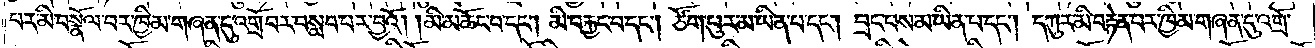པར་མི་བསྣོལ་བར་ཁྱིམ་གཞན་དུ་འགྲོ་བར་བསླབ་པར་བྱའོ། །མི་མཆོང་བ་དང༌། མི་བརྐྱང་བ་དང༌། ཙོག་པུར་མ་ཡིན་པ་དང༌། བྲང་པས་མ་ཡིན་པ་དང༌། དཀུར་མི་བརྟེན་པར་ཁྱིམ་གཞན་དུ་འགྲོ་
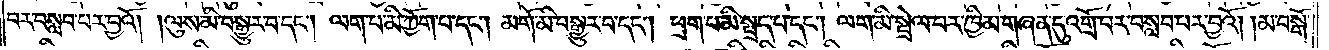བར་བསླབ་པར་བྱའོ། །ལུས་མི་བསྒྱུར་བ་དང༌། ལག་པ་མི་ཀྱོག་པ་དང༌། མགོ་མི་བསྒྱུར་བ་དང༌། ཕྲག་པ་མི་སྤྲད་པ་དང༌། ལག་མི་སྦྲེལ་བར་ཁྱིམ་གཞན་དུ་འགྲོ་བར་བསླབ་པར་བྱའོ། །མ་བསྒོ་
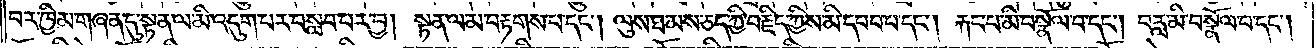བར་ཁྱིམ་གཞན་དུ་སྟན་ལ་མི་འདུག་པར་བསླབ་པར་བྱ། སྟན་ལ་མ་བརྟགས་པ་དང༌། ལུས་ཐམས་ཅད་ཀྱི་བརྗིད་ཀྱིས་མི་དབབ་པ་དང༌། རྐང་པ་མི་བསྣོལ་བ་དང༌། བརླ་མི་བསྣོལ་བ་དང༌།
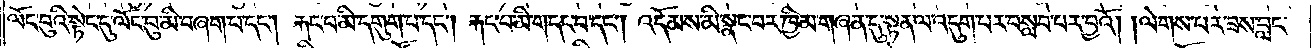ལོང་བུའི་སྟེང་དུ་ལོང་བུ་མི་བཞག་པ་དང༌། རྐང་པ་མི་དགུག་པ་དང༌། རྐང་པ་མི་གདང་བ་དང༌། འདོམས་མི་སྣང་བར་ཁྱིམ་གཞན་དུ་སྟན་ལ་འདུག་པར་བསླབ་པར་བྱའོ། །ལེགས་པར་ཟས་བླང་
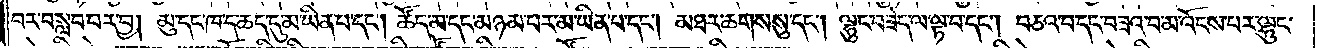བར་བསླབ་པར་བྱ། མུ་དང་ཁ་ད་ཆད་དུ་མ་ཡིན་པ་དང༌། ཚོད་མ་དང་མཉམ་པར་མ་ཡིན་པ་དང༌། མཐར་ཆགས་སུ་དང༌། ལྷུང་བཟེད་ལ་ལྟ་བ་དང༌། བཅའ་བ་དང་བཟའ་བ་མ་འོངས་པར་ལྷུང་
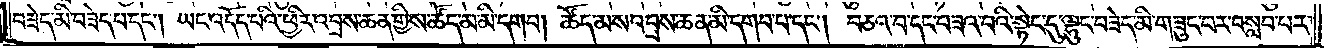བཟེད་མི་བཟེད་པ་དང༌། ཡང་འདོད་པའི་ཕྱིར་འབྲས་ཆན་གྱིས་ཚོད་མ་མི་དགབ། ཚོད་མས་འབྲས་ཆན་མི་དགབ་པ་དང༌། བཅའ་བ་དང་བཟའ་བའི་སྟེང་དུ་ལྷུང་བཟེད་མི་གཟུང་བར་བསླབ་པར་
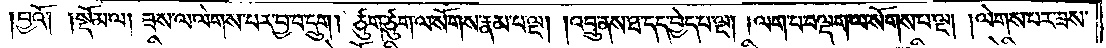བྱའོ། །སྡོམ་ལ། ཟས་ལ་ལེགས་པར་བྱ་བ་དྲུག། ཙུག་ཙུག་ལ་སོགས་རྣམ་པ་ལྔ། འབྲུ་ནས་ཐ་དད་བྱེད་པ་ལྔ། །ལག་པ་བལྡག་ལ་སོགས་པ་ལྔ། །ལེགས་པར་ཟས་
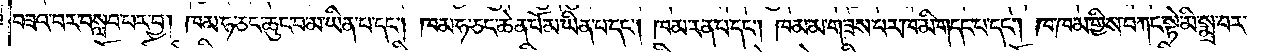བཟའ་བར་བསླབ་པར་བྱ། ཁམ་ཧ་ཅང་ཆུང་བ་མ་ཡིན་པ་དང༌། ཁམ་ཧ་ཅང་ཆེན་པོ་མ་ཡིན་པ་དང༌། ཁམ་རན་པ་དང༌། ཁམ་མ་གཟས་པར་ཁ་མི་གདང་པ་དང༌། ཁ་ཁམ་གྱིས་བཀང་སྟེ་མི་སྨྲ་བར་
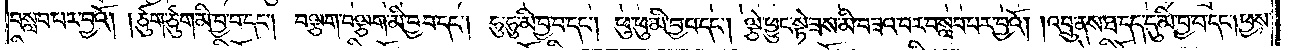བསླབ་པར་བྱའོ། །ཙུག་ཙུག་མི་བྱ་བ་དང༌། བལྕག་བལྕག་མི་བྱ་བ་དང༌། ཧུ་ཧུ་མི་བྱ་བ་དང༌། ཕུ་ཕུ་མི་བྱ་བ་དང༌། ལྕེ་ཕྱུང་སྟེ་ཟས་མི་བཟའ་བར་བསླབ་པར་བྱའོ། །འབྲུ་ནས་ཐ་དད་དུ་མི་བྱ་བ་དང༌།ཕྱས་
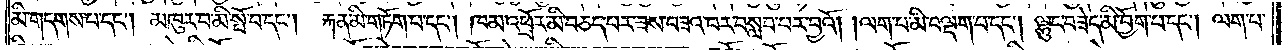མི་གདགས་པ་དང༌། མཁུར་བ་མི་སྤོ་བ་དང༌། རྐན་མི་གཏོག་པ་དང༌། ཁམ་འཕྲོར་མི་བཅད་པར་ཟས་བཟའ་བར་བསླབ་པར་བྱའོ། །ལག་པ་མི་བལྡག་པ་དང༌། ལྷུང་བཟེད་མི་བྱོག་པ་དང༌། ལག་པ་
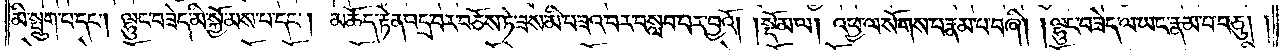མི་སྤྲུག་པ་དང༌། ལྷུང་བཟེད་མི་སྐྱོ་མས་པ་དང༌། མཆོད་རྟེན་འདྲ་བར་བཅོས་ཏེ་ཟས་མི་བཟའ་བར་བསླབ་པར་བྱའོ། །སྡོམ་ལ། འཕྱ་ལ་སོགས་པ་རྣམ་པ་བཞི། །ལྷུང་བཟེད་ལ་ཡང་རྣམ་པ་བཅུ། །
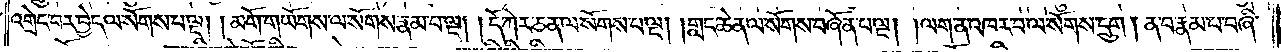འགྲེང་བར་བྱེད་ལ་སོགས་པ་ལྔ། །མགོ་གཡོགས་ལ་སོགས་རྣམ་པ་ལྔ། །དོ་ཀེར་ཅན་ལ་སོགས་ལྔ། །གླང་ཆེན་ལ་སོགས་བཞོན་པ་ལྔ། །ལག་ན་འཁར་བ་ལ་སོགས་དྲུག། ན་བ་རྣམ་པ་བཞི་
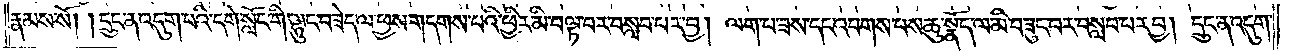རྣམས་སོ། །དྲུང་ན་འདུག་པའི་དགེ་སློང་གི་ལྷུང་བཟེད་ལ་ཕྱས་གདགས་པའི་ཕྱིར་མི་བལྟ་བར་བསླབ་པར་བྱ། ལག་པ་ཟས་དང་འབགས་པས་ཆུ་སྣོད་ལ་མི་བཟུང་བར་བསླབ་པར་བྱ། དྲུང་ན་འདུག་
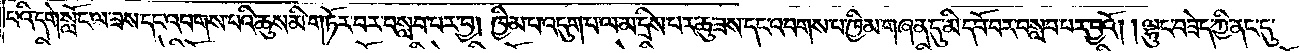པའི་དགེ་སློང་ལ་ཟས་དང་འབགས་པའི་ཆུས་མི་གཏོར་བར་བསླབ་པར་བྱ། ཁྱིམ་པ་འདུག་པ་ལ་མ་དྲིས་པར་ཆུ་ཟས་དང་འབགས་པ་ཁྱིམ་གཞན་དུ་མི་དབོ་བར་བསླབ་པར་བྱའོ། །ལྷུང་བཟེད་ཀྱི་ནང་དུ་
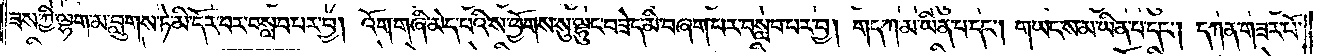ཟས་ཀྱི་ལྷག་མ་བླུགས་ཏེ་མི་དོར་བར་བསླབ་པར་བྱ། འོག་གཞི་མེད་པའི་ས་ཕྱོགས་སུ་ལྷུང་བཟེད་མི་བཞག་པར་བསླབ་པར་བྱ། གད་ཀ་མ་ཡིན་པ་དང༌། གཡང་ས་མ་ཡིན་པ་དང༌། དཀན་གཟར་པོ་
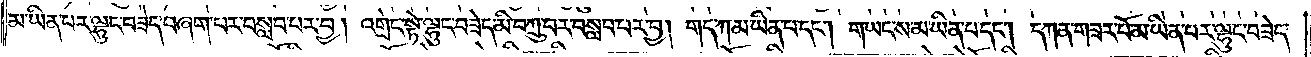མ་ཡིན་པར་ལྷུང་བཟེད་བཞག་པར་བསླབ་པར་བྱ། འགྲེང་སྟེ་ལྷུང་བཟེད་མི་བཀྲུ་བར་བསླབ་པར་བྱ། གད་ཀ་མ་ཡིན་པ་དང༌། གཡང་ས་མ་ཡིན་པ་དང༌། དཀན་གཟར་པོ་མ་ཡིན་པར་ལྷུང་བཟེད་
